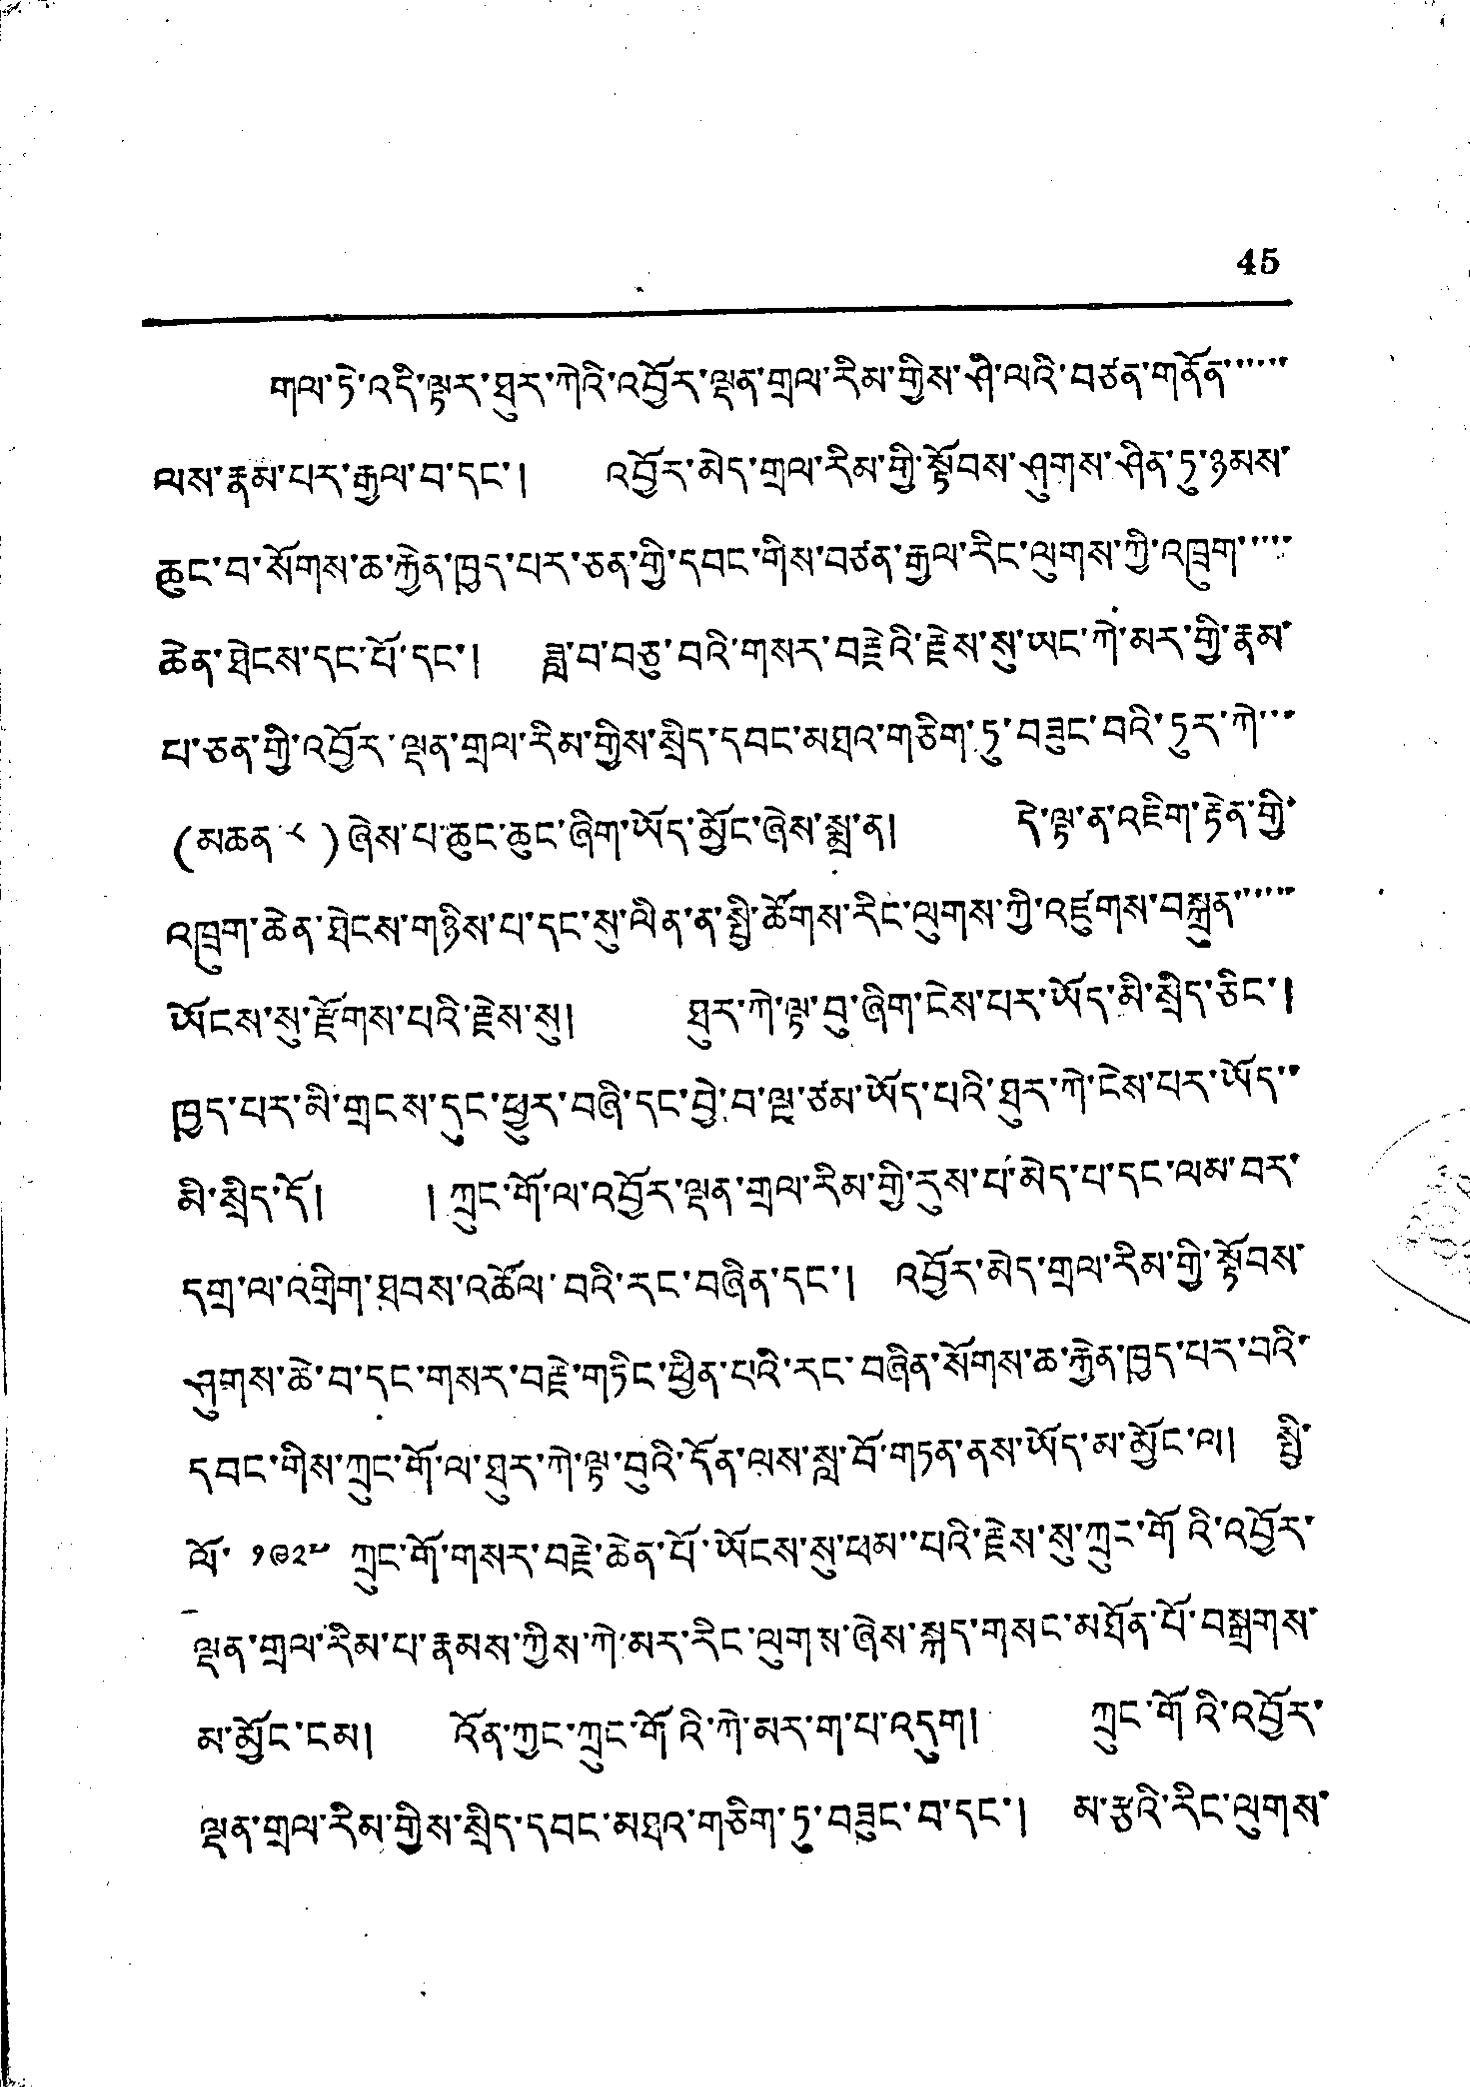45
གལ་ཏེ་འདི་ལྟར་ཐུར་ཀེའི་འབྱོར་ལྡན་གྲལ་རིམ་གྱིས་ཤི་ལའི་བཙན་གནོན་་་་་་
ལས་རྣམ་པར་རྒྱལ་བ་དང་། འབྱོར་མེད་གྲལ་རིམ་གྱི་སྟོབས་ཤུགས་ཤིན་ཏུ་ཉམས་
ཆུང་བ་སོགས་ཆ་རྐྱེན་ཁྱད་པར་ཅན་གྱི་དབང་གིས་བཙན་རྒྱལ་རིང་ལུགས་ཀྱི་འཁྲུག་་་་་
ཆེན་ཐེངས་དང་པོ་དང་། ཟླ་བ་བཅུ་བའི་གསར་བརྗེའི་རྗེས་སུ་ཡང་ཀེ་མར་གྱི་རྣམ་
པ་ཅན་གྱི་འབྱོར་ལྡན་གྲལ་རིམ་གྱིས་སྲིད་དབང་མཐའ་གཅིག་ཏུ་བཟུང་བའི་ཏུར་ཀེ་་་
(མཆན ༨)ཞེས་པ་ཆུང་ཆུང་ཞིག་ཡོད་མྱོང་ཞེས་སྨྲ་ན། དེ་ལྟ་ན་འཇིག་རྟེན་གྱི་
འཁྲུག་ཆེན་ཐེངས་གཉིས་པ་དང་སུ་ལིན་ན་སྤྱི་ཚོགས་རིང་ལུགས་ཀྱི་འཛུགས་བསྐྲུན་་་་་་
ཡོངས་སུ་རྫོགས་པའི་རྗེས་སུ། ཐུར་ཀེ་ལྟ་བུ་ཞིག་ངེས་པར་ཡོད་མི་སྲིད་ཅིང་།
ཁྱད་པར་མི་གྲངས་དང་ཕྱུར་བཞི་དང་བྱེ་བ་ལྔ་ཙམ་ཡོད་པའི་ཐུར་ཀེ་ངེས་པར་ཡོད་་
མི་སྲིད་དོ། །ཀྲུང་གོ་ལ་འབྱོར་ལྡན་གྲལ་རིམ་གྱི་རུས་པ་མེད་པ་དང་ལམ་བར་
དགྲ་ལ་འགྲིག་ཐབས་འཚོལ་བའི་རང་བཞིན་དང་། འབྱོར་མེད་གྲལ་རིམ་གྱི་སྟོབས་
ཤུགས་ཆེ་བ་དང་གསར་བརྗེ་གཏིང་ཕྱིན་པའི་རང་བཞིན་སོགས་ཆ་རྐྱེན་ཁྱད་པར་བའི་
དབང་གིས་ཀྲུང་གོ་ལ་ཐུར་ཀེ་ལྟ་བུའི་དོན་ལས་སླ་བོ་གཏན་ནས་ཡོད་མ་མྱོང་ལ། སྤྱི་
ལོ་ ༡༩༢༧ ཀྲུང་གོ་གསར་བརྗེ་ཆེན་པོ་ཡོངས་སུ་ཕམ་་པའི་རྗེས་སུ་ཀྲུང་གོའི་འབྱོར་
ལྡན་གྲལ་རིམ་པ་རྣམས་ཀྱིས་ཀེ་མར་རིང་ལུགས་ཞེས་སྐད་གསང་མཐོན་པོ་བསྒྲགས་
མ་མྱོང་ངམ། འོན་ཀྱང་ཀྲུང་གོའི་ཀེ་མར་ག་པ་འདུག། ཀྲུང་གོའི་འབྱོར་
ལྡན་གྲལ་རིམ་གྱི་སྲིད་དབང་མཐའ་གཅིག་ཏུ་བཟུང་བ་དང་། མ་རྩའི་རིང་ལུགས་
